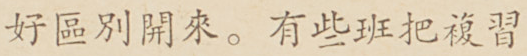好區別開來。有些班把複習
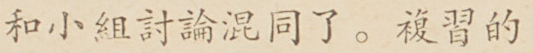和小組討論混同了。複習的
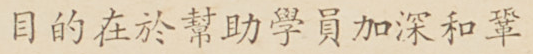目的在於幫助學員加深和鞏
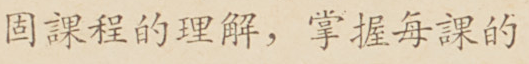固課程的理解，掌握每課的
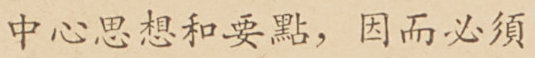中心思想和要點，因而必須
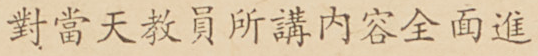對當天教員所講內容全面進
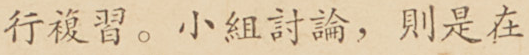行複習。小組討論，則是在
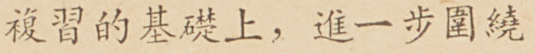複習的基礎上，進一步圍繞
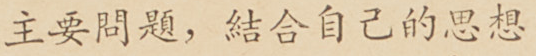主要問題，結合自己的思想
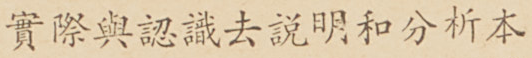實際與認識去說明和分析本
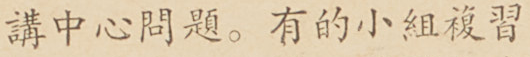講中心問題。有的小組複習
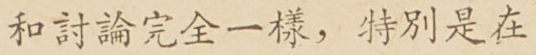和討論完全一樣，特別是在
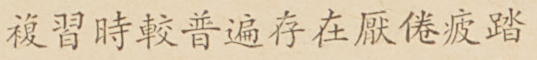複習時較普遍存在厭倦疲踏
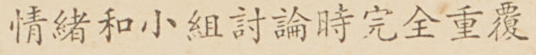情緒和小組討論時完全重覆
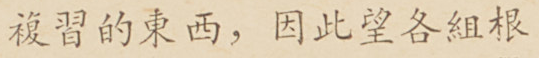複習的東西，因此望各組根
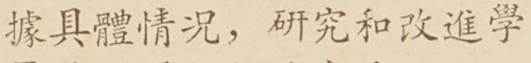據具體情況，研究和改進學
